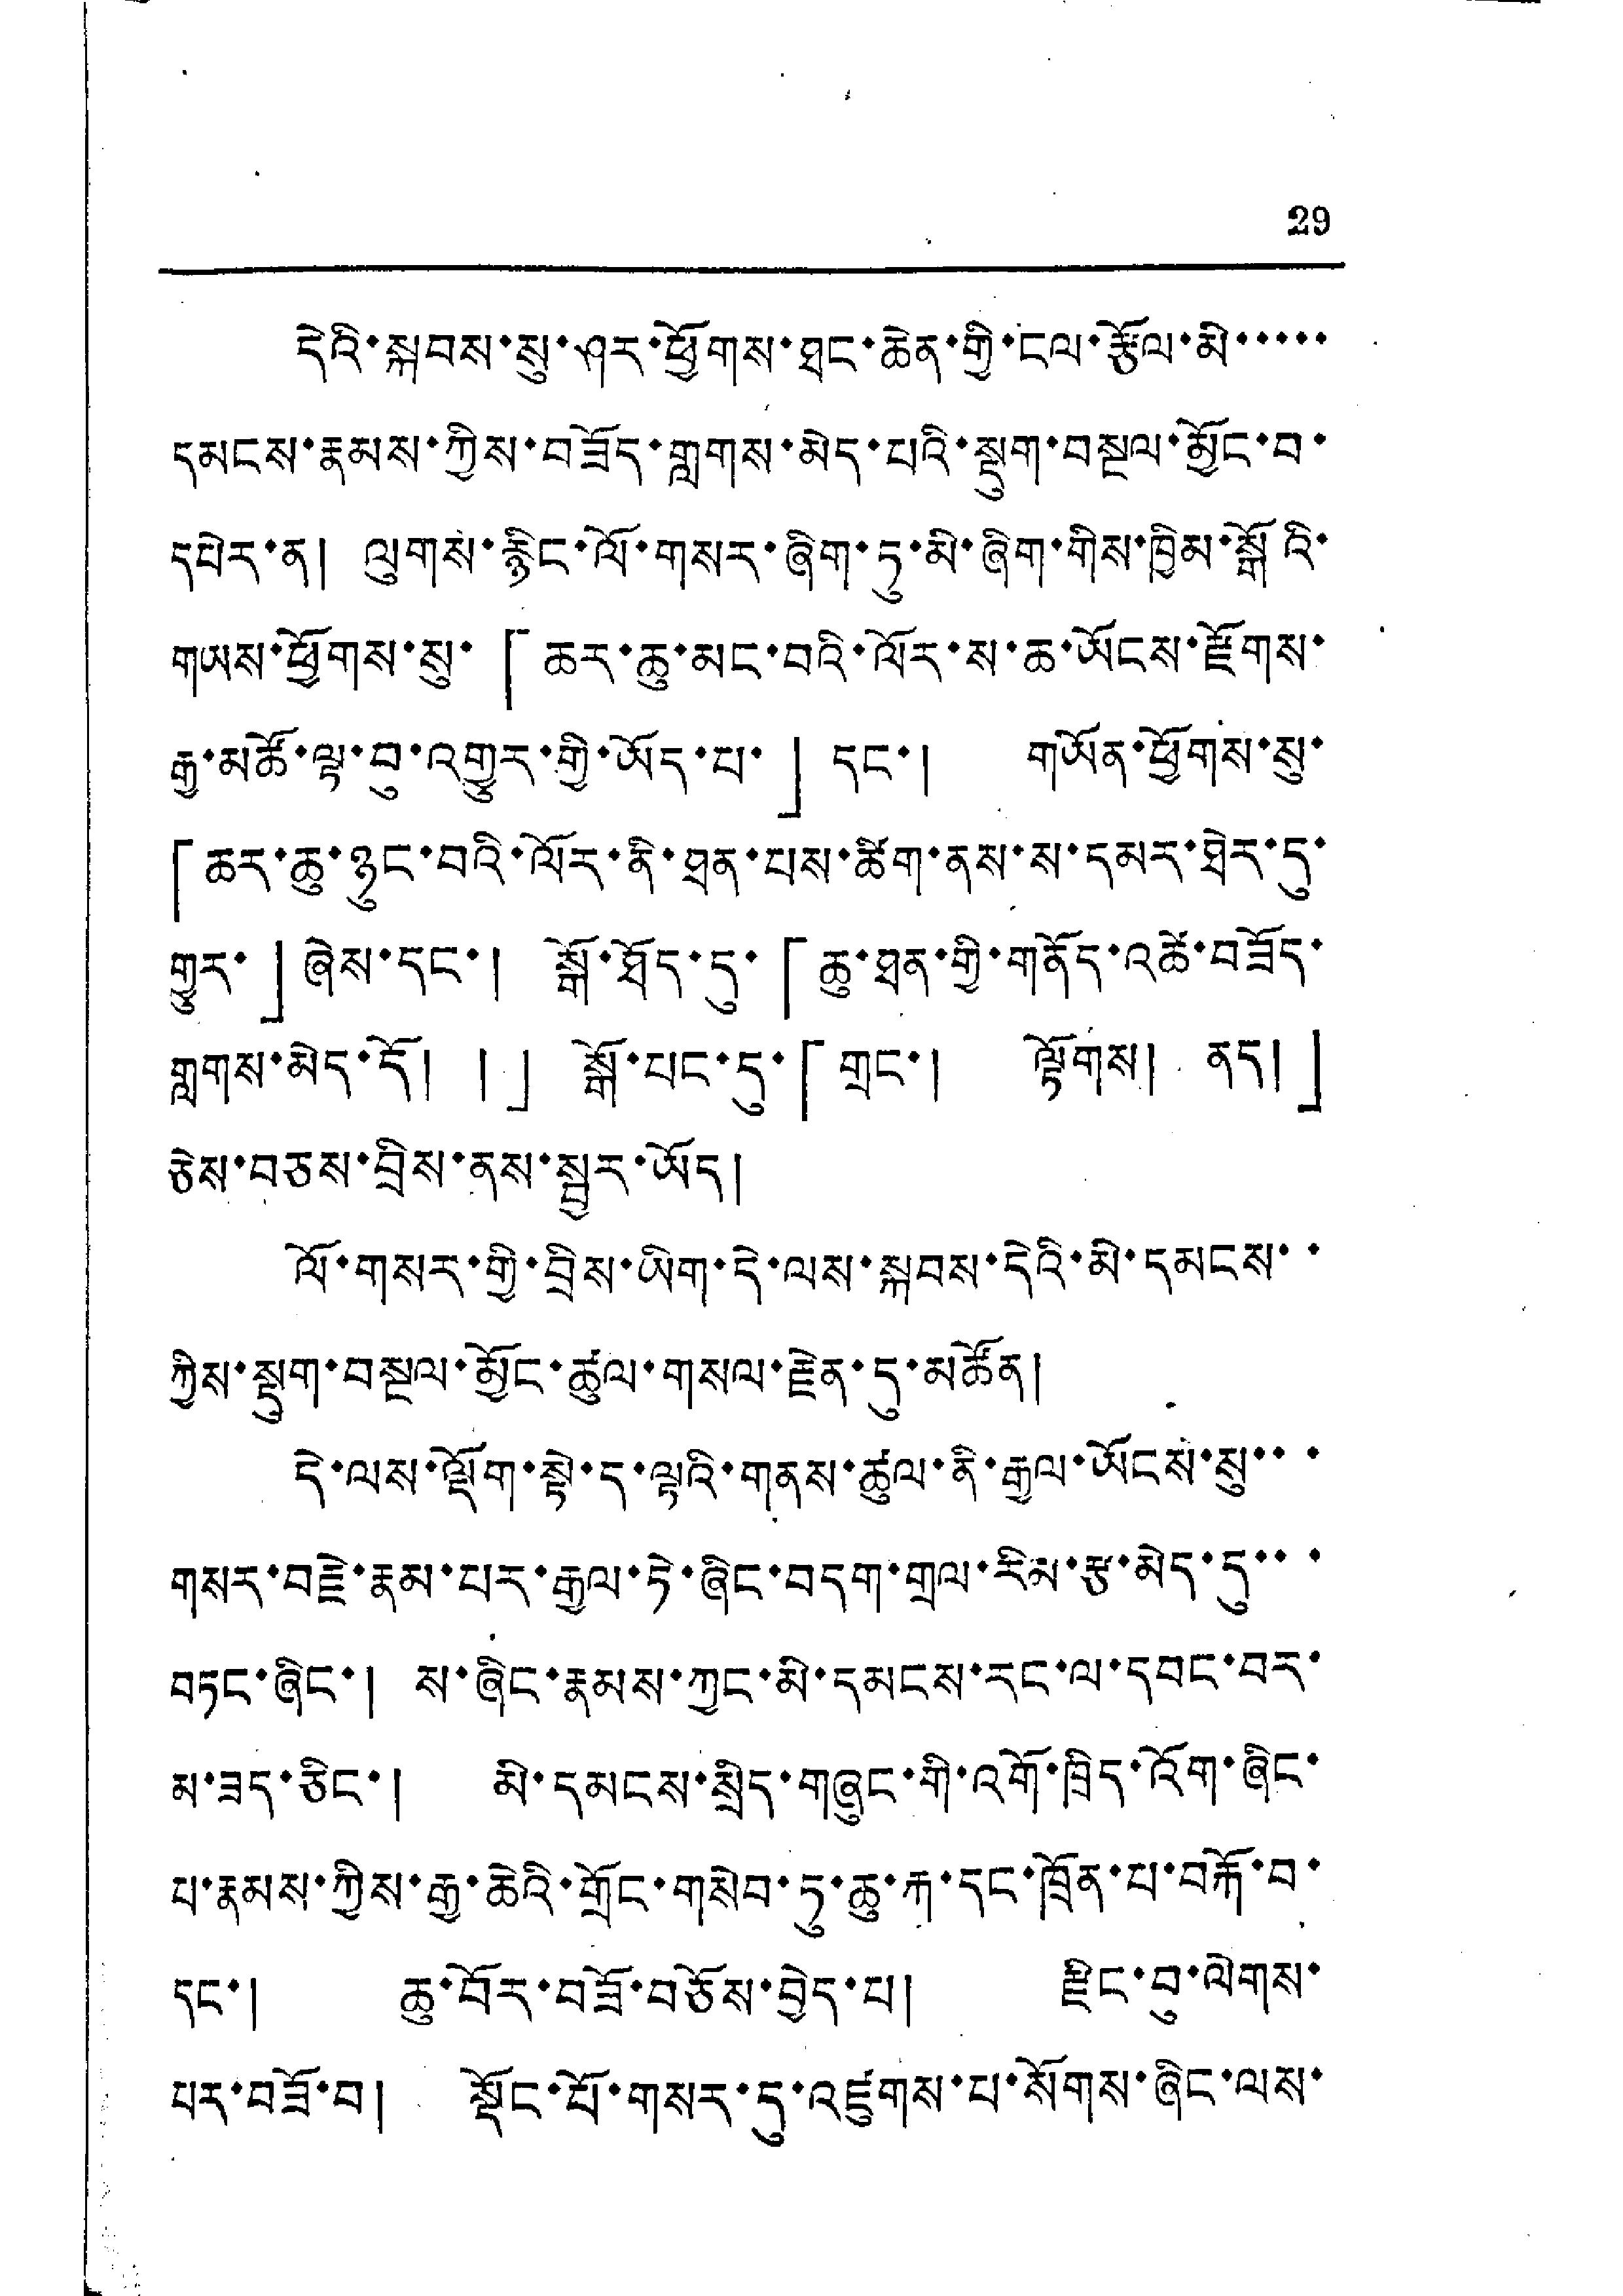29
དེའི་སྐབས་སུ་ཤར་ཕྱོགས་ཐང་ཆེན་གྱི་ངལ་རྩོལ་མི་་་་་
དམངས་རྣམས་ཀྱིས་བཟོད་གླགས་མེད་པའི་སྡུག་བསྔལ་མྱོང་བ་
དཔེར་ན། ལུགས་རྙིང་ལོ་གསར་ཞིག་ཏུ་མི་ཞིག་གིས་ཁྱིམ་སྒོའི་
གཡས་ཕྱོགས་སུ་「ཆར་ཆུ་མང་བའི་ལོར་ས་ཆ་ཡོངས་རྫོགས་
རྒྱ་མཚོ་ལྟ་བུ་འགྱུར་གྱི་ཡོད་པ་」དང་། གཡོན་ཕྱོགས་སུ་
「ཆར་ཆུ་ཉུང་བའི་ལོར་ནི་ཐན་པས་ཚིག་ནས་ས་དམར་ཐེར་དུ་
གྱུར་」ཞེས་དང་། སྒོ་ཐོད་དུ་「ཆུ་ཐན་གྱི་གནོད་འཚེ་བཟོད་
བླགས་མེད་དོ། །」 སྒོ་པང་དུ་「གྲང་། ལྟོགས། ནད།」
ཅེས་བཅས་བྲིས་ནས་སྦྱར་ཡོད།
ལོ་གསར་གྱི་བྲིས་ཡིག་དེ་ལས་སྐབས་དེའི་མི་དམངས་་
ཀྱིས་སྡུག་བསྔལ་མྱོང་ཚུལ་གསལ་རྗེན་དུ་མཚོན།
དེ་ལས་ལྡོག་སྟེ་ད་ལྟའི་གནས་ཚུལ་ནི་རྒྱལ་ཡོངས་སུ་་་
གསར་བརྗེ་རྣམ་པར་རྒྱལ་ཏེ་ཞིང་བདག་གྲལ་རིམ་རྩ་མེད་དུ་་་
བཏང་ཞིང་། ས་ཞིང་རྣམས་ཀྱང་མི་དམངས་རང་ལ་དབང་བར་
མ་ཟད་ཅིང་། མི་དམངས་སྲིད་གཞུང་གི་འགོ་ཁྲིད་འོག་ཞིང་
པ་རྣམས་ཀྱིས་རྒྱ་ཆེའི་གྲོང་གསེབ་ཏུ་ཆུ་རྐ་དང་ཁྲོན་པ་བརྐོ་བ་
དང་། ཆུ་བོར་བཟོ་བཅོས་བྱེད་པ། རྫིང་བུ་ལེགས་
པར་བཟོ་བ། སྡོང་པོ་གསར་དུ་འཛུགས་པ་སོགས་ཞིང་ལས་
